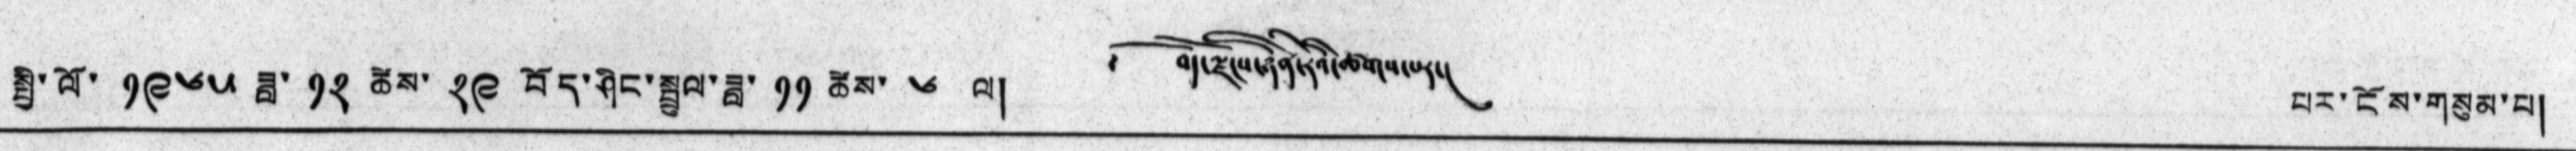སྤྱི་ལོ་ ༡༩༦༥ ཟླ་ ༡༢ ཚེས་ ༢༩ བོད་ཤིང་སྦྲུལ་ཟླ་ ༡༡ ཚེས་ ༦ ལ། ༄༅། བོད་ལྗོངས་ཉིན་རེའི་ཚགས་པར། པར་ངོས་གསུམ་པ།
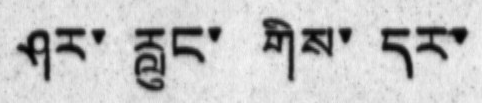ཤར་ རླུང་ གིས་ དར་
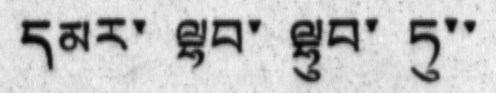དམར་ལྷབ་ ལྷུབ་ ཏུ་་
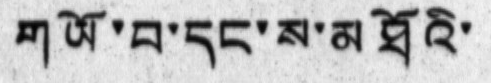གཡོ་བ་དང་ས་མཐོའི་
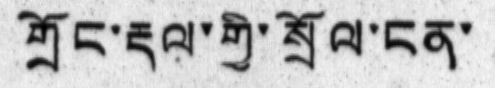གྲོང་རྡལ་གྱི་སྲོལ་ངན་
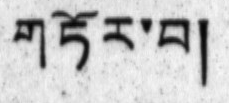གཏོར་བ།
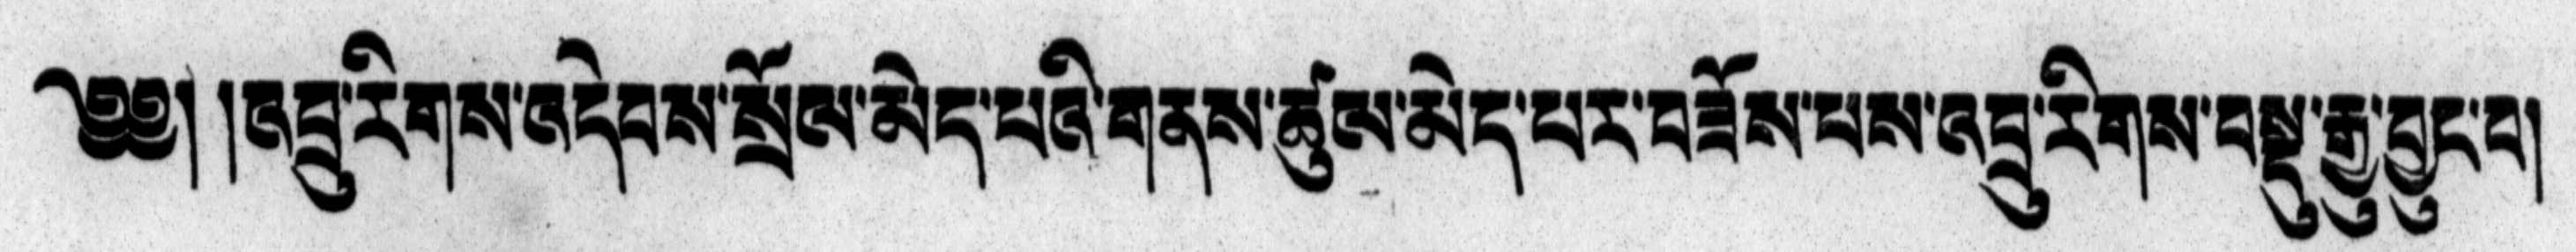༄༅། །འབྲུ་རིགས་འདེབས་སྲོལ་མེད་པའི་གནས་ཚུལ་མེད་པར་བཟོས་པས་འབྲུ་རིགས་བསྡུ་རྒྱུ་བྱུང་བ།
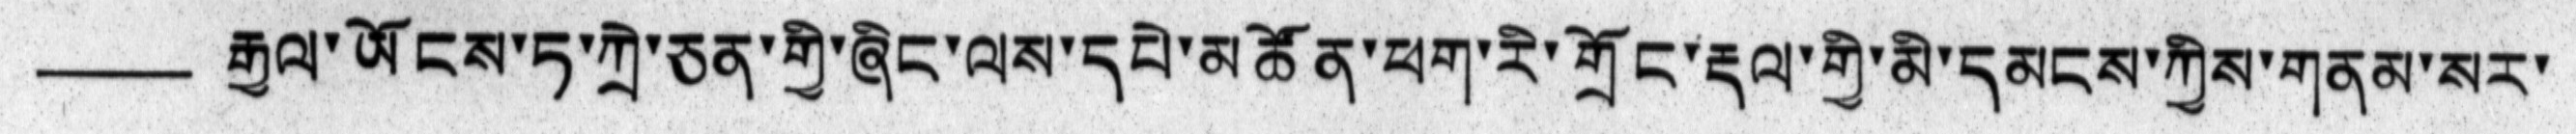——རྒྱལ་ཡོངས་ཏ་ཀྲེ་ཅན་གྱི་ཞིང་ལས་དཔེ་མཚོན་ཕག་རི་གྲོང་རྡལ་གྱི་མི་དམངས་ཀྱིས་གནམ་སར་
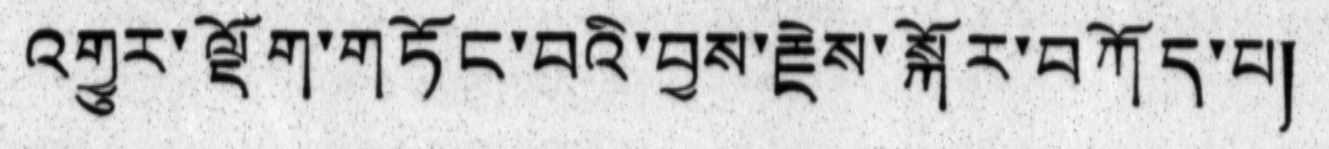འགྱུར་ལྡོག་གཏོང་བའི་བྱས་རྗེས་སྐོར་བཀོད་པ།
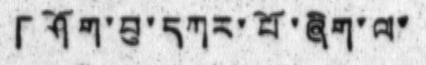「ཤོག་བུ་དཀར་པོ་ཞིག་ལ་
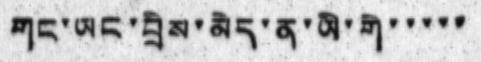གང་ཡང་བྲིས་མེད་ན་ཡི་གེ་་་་་
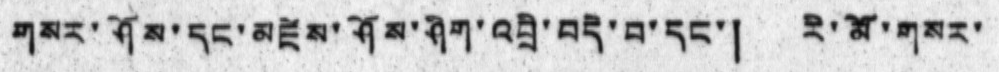གསར་ཤོས་དང་མཛས་ཤོས་ཤིག་འབྲི་བདེ་བ་དང་། རི་མོ་གསར་
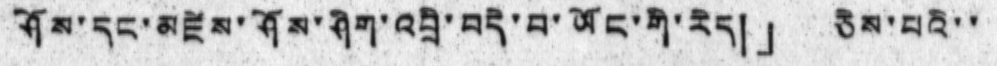ཤོས་དང་མཛེས་ཤོས་ཤིག་འབྲི་བདེ་བ་ཡོང་གི་རེད། 」ཅེས་པའི་་
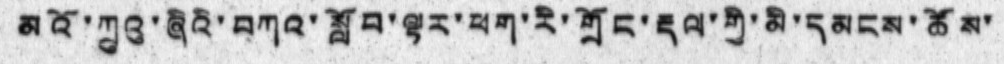མའོ་ཀྲུའུ་ཞིའི་བཀའ་སློབ་ལྟར་ཕག་རི་གྲོང་རྡལ་གྱི་མི་དམངས་ཚོས་
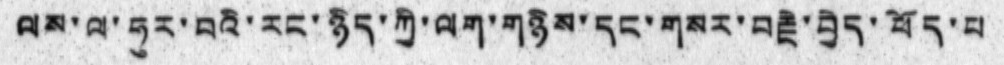ལས་ལ་ཧུར་བའི་རང་ཉིད་ལག་གཉིས་དང་གསར་བརྗེ་བྱེད་ཕོད་པ
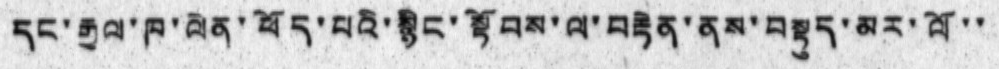དང་རྒྱལ་ཁ་ལེན་ཕོད་པའི་སྙིང་སྟོབས་ལ་བརྟེན་ནས་བསྟུད་མར་ལོ་་
